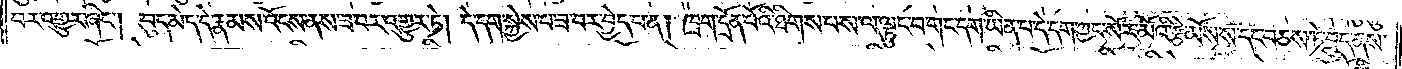བར་འགྱུར་ཞིང༌། བུད་མེད་དེ་རྣམས་འོངས་ནས་ཟ་བར་འགྱུར་ཏེ། དེ་དག་སྐྱེས་པ་ཟ་བར་བྱེད་པ་ན། ཁྲག་དྲོན་པོའི་ཐིགས་པ་ས་ལ་ལྟུང་བ་གང་དག་ཡིན་པ་དེ་དག་ཀྱང་སོར་མོའི་རྩེ་མོས་ས་དང་བཅས་ཏེ་བྲུད་ནས་
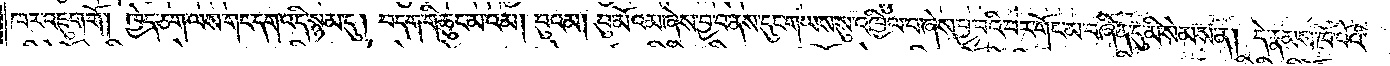ཁར་འཇུག་གོ། ཁྱེད་ཅག་ལས་གང་དག་འདི་སྙམ་དུ། བདག་གི་ཆུང་མའམ། བུའམ། བུ་མོའམ་ཞེས་བྱ་བ་ནས་དུང་གཡས་སུ་འཁྱིལ་བ་ཞེས་བྱ་བའི་བར་གོང་མ་བཞིན་དུ་མི་སེམས་ན། དེ་རྣམས་ཁོ་བོའི་
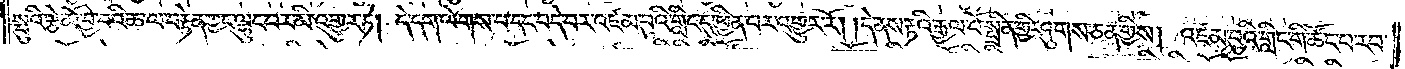སྤུའི་རྩེ་མོ་བྱེ་བའི་ཆ་ལ་བརྟེན་ཀྱང་ལྷུང་བར་མི་འགྱུར་ཏེ། དེ་དག་ལེགས་པ་དང་བདེ་བར་འཛམ་བུའི་གླིང་དུ་ཕྱིན་པར་འགྱུར་རོ། །དེ་ནས་རྟའི་རྒྱལ་པོ་སྤྲིན་གྱི་ཤུགས་ཅན་གྱིས། འཛམ་བུའི་གླིང་གི་ཚོང་པ་རབ་
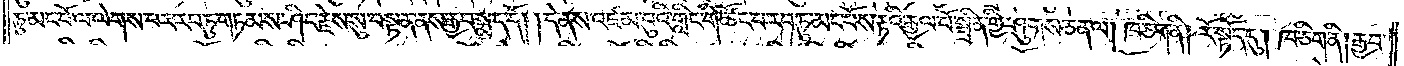ཏུ་མང་པོ་ལ་ལེགས་པར་རབ་ཏུ་གཏམས་ཤིང་རྗེས་སུ་བསྟན་ནས་རྒྱབ་སྨད་དོ། །དེ་ནས་འཛམ་བུའི་གླིང་གི་ཚོང་པ་རབ་ཏུ་མང་པོས་རྟའི་རྒྱལ་པོ་སྤྲིན་གྱི་ཤུགས་ཅན་ལ། ཁ་ཅིག་ནི། རོ་སྟོད་དུ། ཁ་ཅིག་ནི། རྒྱབ་
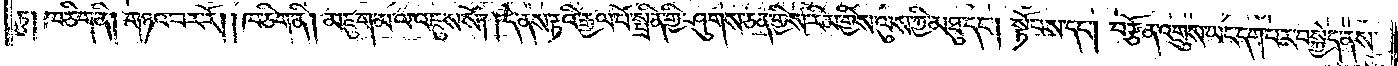ཏུ། ཁ་ཅིག་ནི། གཉའ་བར་རོ། །ཁ་ཅིག་ནི། མཇུག་མ་ལ་འཇུས་སོ། །དེ་ནས་རྟའི་རྒྱལ་པོ་སྤྲིན་གྱི་ཤུགས་ཅན་གྱིས་རིམ་གྱིས་ལུས་ཀྱི་མཐུ་དང༌། སྟོབས་དང༌། བརྩོན་འགྲུས་ཡང་དག་པར་བསྐྱེད་ནས་
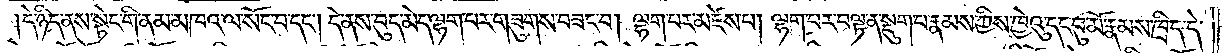།དེ་ཉིད་ནས་སྟེང་གི་ནམ་མཁའ་ལ་སོང་བ་དང༌། དེ་ནས་བུད་མེད་ལྷག་པར་གཟུགས་བཟང་བ། ལྷག་པར་མཛེས་པ། ལྷག་པར་བལྟ་ན་སྡུག་པ་རྣམས་ཀྱིས་ཁྱེའུ་དང་བུ་མོ་རྣམས་ཁྲིད་དེ་
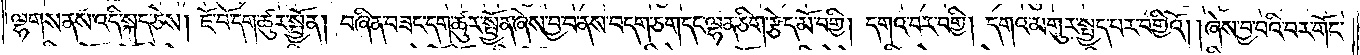ལྷགས་ནས་འདི་སྐད་ཅེས། ཇོ་བོ་དག་ཚུར་སྤྱོན། བཞིན་བཟང་དག་ཚུར་སྤྱོན་ཞེས་བྱ་བ་ནས་བདག་ཅག་དང་ལྷན་ཅིག་རྩེད་མོ་བགྱི། དགའ་བར་བགྱི། དགའ་མགུར་སྤྱད་པར་བགྱིའོ། །ཞེས་བྱ་བའི་བར་གོང་
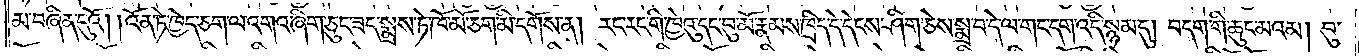མ་བཞིན་དུའོ། །འོན་ཏེ་ཁྱེད་ཅག་ལ་འགའ་ཞིག་ཅུང་ཟད་སྨྲས་ཏེ་ཁོ་མོ་ཅག་མི་དགོས་ན། རང་རང་གི་ཁྱེའུ་དང་བུ་མོ་རྣམས་ཁྲིད་དེ་དེངས་ཤིག་ཅེས་སྨྲ་བ་དེ་ལ་གང་དག་འདི་སྙམ་དུ། བདག་གི་ཆུང་མའམ། བུ་
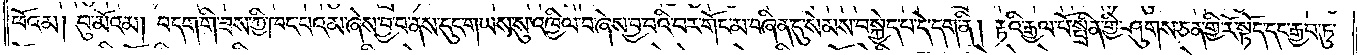ཕོའམ། བུ་མོའམ། བདག་གི་ཟས་ཀྱི་ཁང་པའམ་ཞེས་བྱ་བ་ནས་དུང་གཡས་སུ་འཁྱིལ་བ་ཞེས་བྱ་བའི་བར་གོང་མ་བཞིན་དུ་སེམས་བསྐྱེད་པ་དེ་དག་ནི། རྟའི་རྒྱལ་པོ་སྤྲིན་གྱི་ཤུགས་ཅན་གྱི་རོ་སྟོད་དང་རྒྱབ་ཏུ་
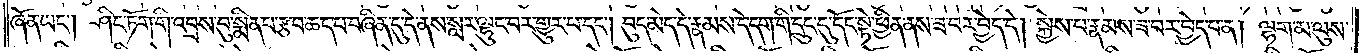ཞོན་ཡང༌། ཤིང་ཏོག་གི་འབྲས་བུ་སྨིན་པ་རྩ་བ་ཆད་པ་བཞིན་དུ་དེ་ནས་སླར་ལྷུང་བར་གྱུར་བ་དང༌། བུད་མེད་དེ་རྣམས་དེ་དག་གི་དྲུང་དུ་དོང་སྟེ་ཕྱིན་ནས་ཟ་བར་བྱེད་དེ། སྐྱེས་པ་རྣམས་ཟ་བར་བྱེད་པ་ན། ལྷག་མ་ལུས་
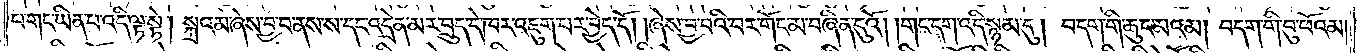པ་གང་ཡིན་པ་འདི་ལྟ་སྟེ། སྐྲའམ་ཞེས་བྱ་བ་ནས་ས་དང་འདྲེན་མར་བྲུད་དེ་ཁར་འཇུག་པར་བྱེད་དོ། །ཞེས་བྱ་བའི་བར་གོང་མ་བཞིན་དུའོ། །གང་དག་འདི་སྙམ་དུ། བདག་གི་ཆུང་མའམ། བདག་གི་བུ་ཕོའམ་
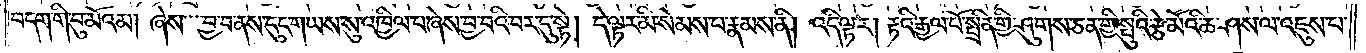བདག་གི་བུ་མོའམ། ཞེས་བྱ་བ་ནས་དུང་གཡས་སུ་འཁྱིལ་པ་ཞེས་བྱ་བའི་བར་དུ་སྟེ། དེ་ལྟར་མི་སེམས་པ་རྣམས་ནི། འདི་ལྟར། རྟའི་རྒྱལ་པོ་སྤྲིན་གྱི་ཤུགས་ཅན་གྱི་སྤུའི་རྩེ་མོའི་ཆ་ཤས་ལ་འཇུས་པ་
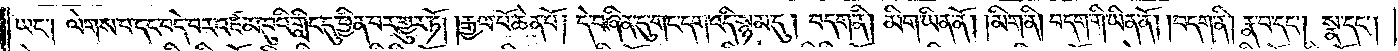ཡང༌། ལེགས་པ་དང་བདེ་བར་འཛམ་བུའི་གླིང་དུ་ཕྱིན་པར་གྱུར་ཏོ། །རྒྱལ་པོ་ཆེན་པོ། དེ་བཞིན་དུ་གང་དག་འདི་སྙམ་དུ། བདག་ནི། མིག་ཡིན་ནོ། །མིག་ནི། བདག་གི་ཡིན་ནོ། །བདག་ནི། རྣ་བ་དང༌། སྣ་དང༌།
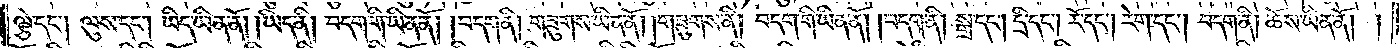ལྕེ་དང༌། ལུས་དང༌། ཡིད་ཡིན་ནོ། །ཡིད་ནི། བདག་གི་ཡིན་ནོ། །བདག་ནི། གཟུགས་ཡིན་ནོ། །གཟུགས་ནི། བདག་གི་ཡིན་ནོ། །བདག་ནི། སྒྲ་དང༌། དྲི་དང༌། རོ་དང༌། རེག་དང༌། བདག་ནི། ཆོས་ཡིན་ནོ། །
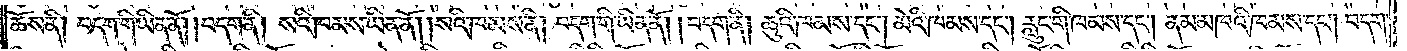ཆོས་ནི། བདག་གི་ཡིན་ནོ། །བདག་ནི། སའི་ཁམས་ཡིན་ནོ། །སའི་ཁམས་ནི། བདག་གི་ཡིན་ནོ། །བདག་ནི། ཆུའི་ཁམས་དང༌། མེའི་ཁམས་དང༌། རླུང་གི་ཁམས་དང༌། ནམ་མཁའི་ཁམས་དང༌། བདག་
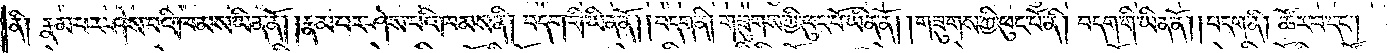ནི། རྣམ་པར་ཤེས་པའི་ཁམས་ཡིན་ནོ། །རྣམ་པར་ཤེས་པའི་ཁམས་ནི། བདག་གི་ཡིན་ནོ། །བདག་ནི། གཟུགས་ཀྱི་ཕུང་པོ་ཡིན་ནོ། །གཟུགས་ཀྱི་ཕུང་པོ་ནི། བདག་གི་ཡིན་ནོ། །བདག་ནི། ཚོར་བ་དང༌།
